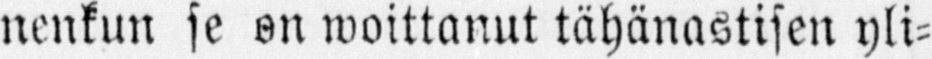nenkun se on woittanut tähänastisen yli-
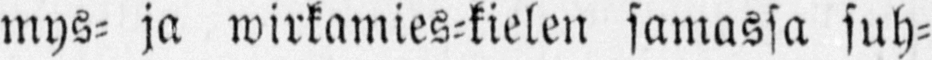mys- ja wirkamies-kielen samassa suh-
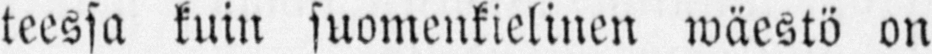teessa kuin suomenkielinen wäestö on
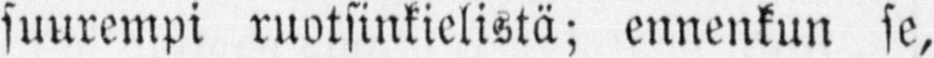suurempi ruotsinkielistä; ennenkun se,
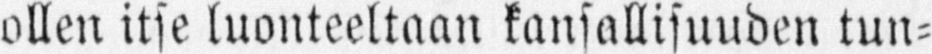ollen itse luonteeltaan kansallisuuden tun-
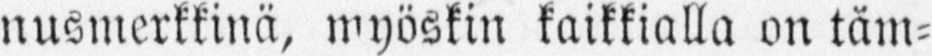nusmerkkinä, myöskin kaikkialla on täm-
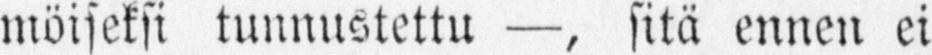möiseksi tunnustettu —, sitä ennen ei
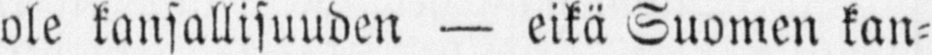ole kansallisuuden — eikä Suomen kan-
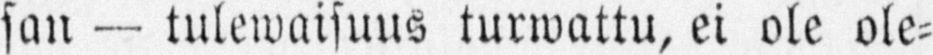san — tulewaisuus turwattu, ei ole ole-
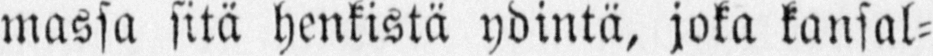massa sitä henkistä ydintä, joka kansal-
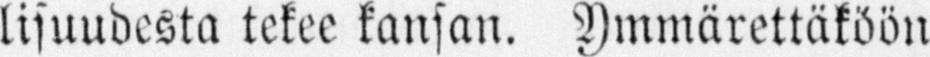lisuudesta tekee kansan. Ymmärettäköön
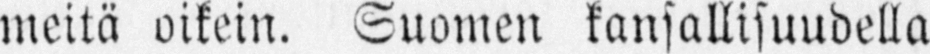meitä oikein. Suomen kansallisuudella
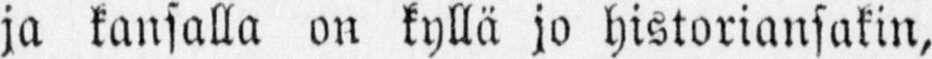ja kansalla on kyllä jo historiansakin,
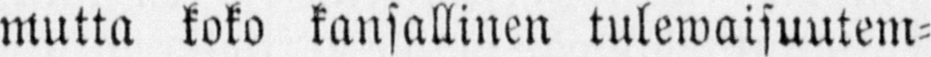mutta koko kansallinen tulewaisuutem-
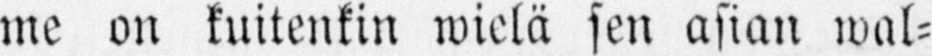me on kuitenkin wielä sen asian wal-
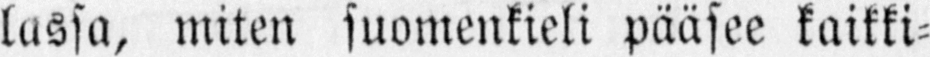lassa, miten suomenkieli pääsee kaikki-
